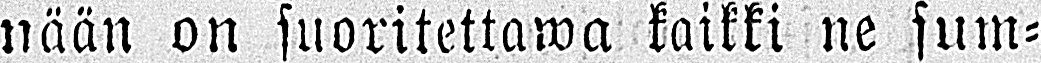nään on suoritettawa kaikki ne sum-
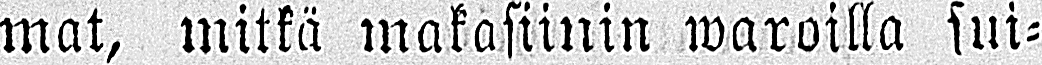mat, mitkä makasiinin waroilla sui-
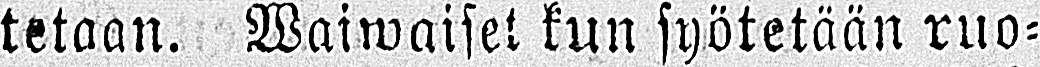tetaan. Waiwaiset kun syötetään ruo-
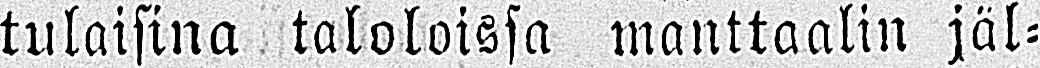tulaisina taloloissa manttaalin jäl-
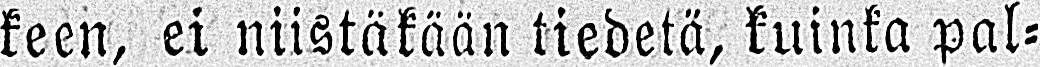keen, ei niistäkään tiedetä, kuinka pal-
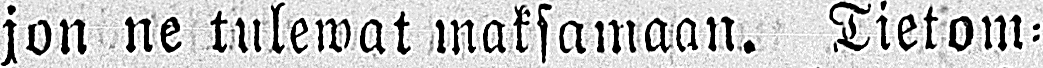jon ne tulewat maksamaan. Tietom-
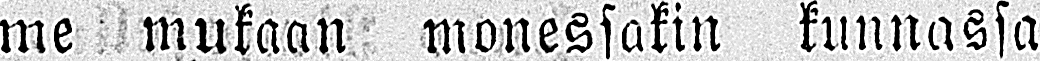me mukaan monessakin kunnassa
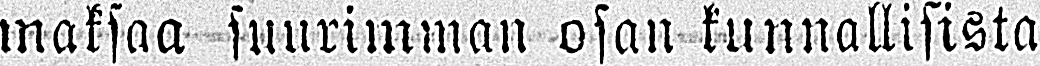maksaa suurimman osan kunnallisista
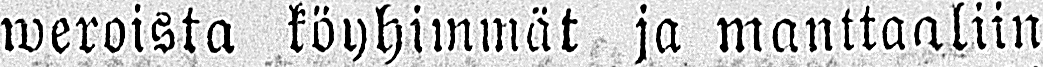weroista köyhimmät ja manttaaliin
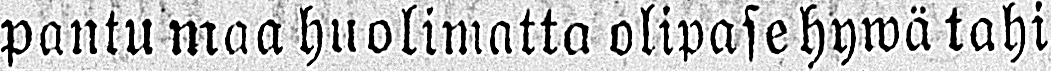pantu maa huolimatta olipase hywä tahi
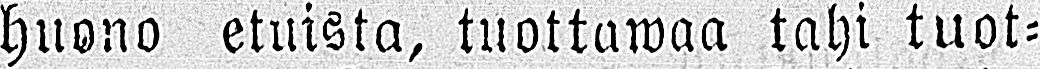huono etuista, tuottawaa tahi tuot-
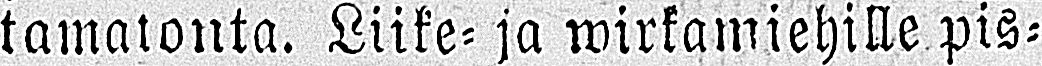tamatonta. Liike- ja wirkamiehille pis-
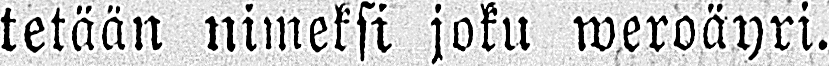tetään nimeksi joku weroäyri.
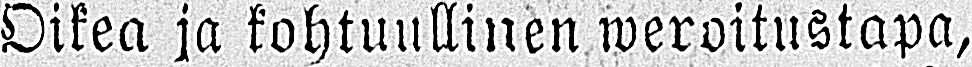Oikea ja kohtuullinen weroitustapa,
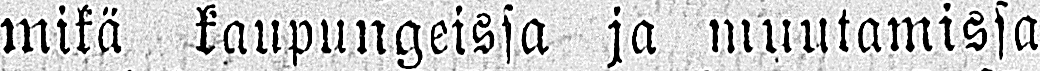mikä kaupungeissa ja muutamissa
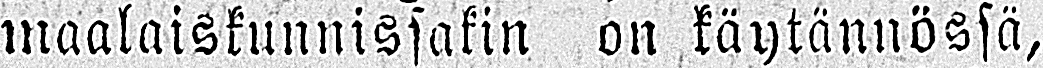maalaiskunnissakin on käytännössä,
